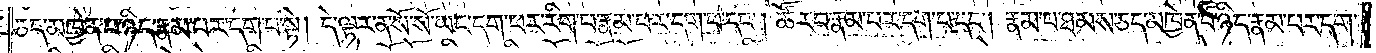ཅད་མཁྱེན་པ་ཉིད་རྣམ་པར་དག་པ་སྟེ། དེ་ལྟར་ན་སོ་སོ་ཡང་དག་པར་རིག་པ་རྣམ་པར་དག་པ་དང༌། ཚོར་བ་རྣམ་པར་དག་པ་དང༌། རྣམ་པ་ཐམས་ཅད་མཁྱེན་པ་ཉིད་རྣམ་པར་དག་
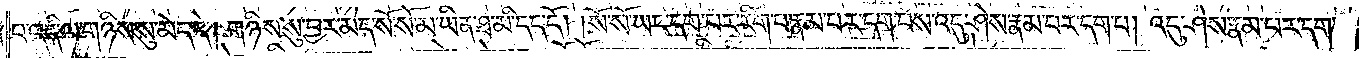པ་འདི་ལ་གཉིས་སུ་མེད་དེ། གཉིས་སུ་བྱར་མེད་སོ་སོ་མ་ཡིན་ཐ་མི་དད་དོ། །སོ་སོ་ཡང་དག་པར་རིག་པ་རྣམ་པར་དག་པས་འདུ་ཤེས་རྣམ་པར་དག་པ། འདུ་ཤེས་རྣམ་པར་དག་
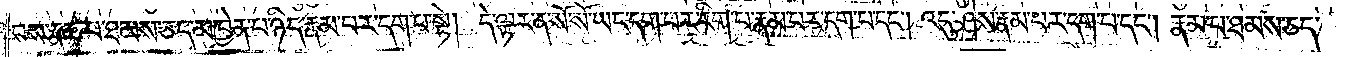པས་རྣམ་པ་ཐམས་ཅད་མཁྱེན་པ་ཉིད་རྣམ་པར་དག་པ་སྟེ། དེ་ལྟར་ན་སོ་སོ་ཡང་དག་པར་རིག་པ་རྣམ་པར་དག་པ་དང༌། འདུ་ཤེས་རྣམ་པར་དག་པ་དང༌། རྣམ་པ་ཐམས་ཅད་
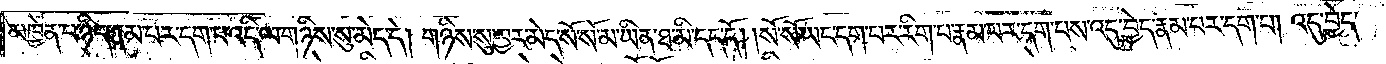མཁྱེན་པ་ཉིད་རྣམ་པར་དག་པ་འདི་ལ་གཉིས་སུ་མེད་དེ། གཉིས་སུ་བྱར་མེད་སོ་སོ་མ་ཡིན་ཐ་མི་དད་དོ། །སོ་སོ་ཡང་དག་པར་རིག་པ་རྣམ་པར་དག་པས་འདུ་བྱེད་རྣམ་པར་དག་པ། འདུ་བྱེད་
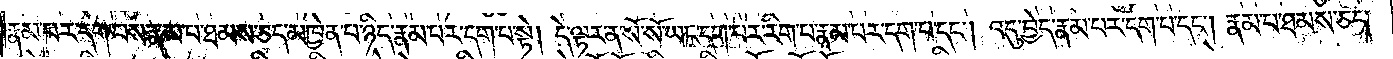རྣམ་པར་དག་པས་རྣམ་པ་ཐམས་ཅད་མཁྱེན་པ་ཉིད་རྣམ་པར་དག་པ་སྟེ། དེ་ལྟར་ན་སོ་སོ་ཡང་དག་པར་རིག་པ་རྣམ་པར་དག་པ་དང༌། འདུ་བྱེད་རྣམ་པར་དག་པ་དང༌། རྣམ་པ་ཐམས་ཅད་
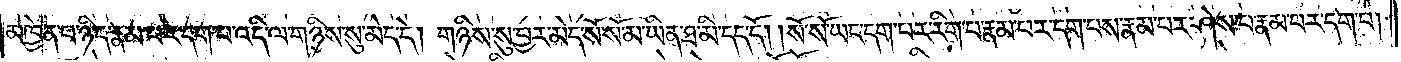མཁྱེན་པ་ཉིད་རྣམ་པར་དག་པ་འདི་ལ་གཉིས་སུ་མེད་དེ། གཉིས་སུ་བྱར་མེད་སོ་སོ་མ་ཡིན་ཐ་མི་དད་དོ། །སོ་སོ་ཡང་དག་པར་རིག་པ་རྣམ་པར་དག་པས་རྣམ་པར་ཤེས་པ་རྣམ་པར་དག་པ།
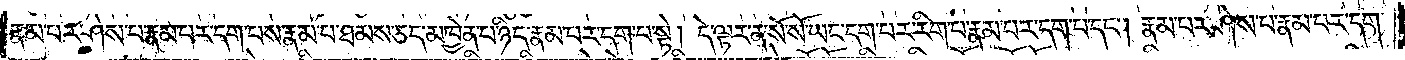རྣམ་པར་ཤེས་པ་རྣམ་པར་དག་པས་རྣམ་པ་ཐམས་ཅད་མཁྱེན་པ་ཉིད་རྣམ་པར་དག་པ་སྟེ། དེ་ལྟར་ན་སོ་སོ་ཡང་དག་པར་རིག་པ་རྣམ་པར་དག་པ་དང༌། རྣམ་པར་ཤེས་པ་རྣམ་པར་དག་
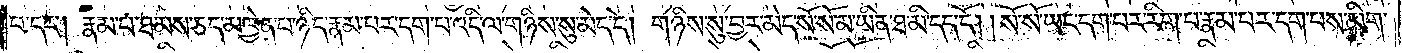པ་དང༌། རྣམ་པ་ཐམས་ཅད་མཁྱེན་པ་ཉིད་རྣམ་པར་དག་པ་འདི་ལ་གཉིས་སུ་མེད་དེ། གཉིས་སུ་བྱར་མེད་སོ་སོ་མ་ཡིན་ཐ་མི་དད་དོ། །སོ་སོ་ཡང་དག་པར་རིག་པ་རྣམ་པར་དག་པས་མིག་
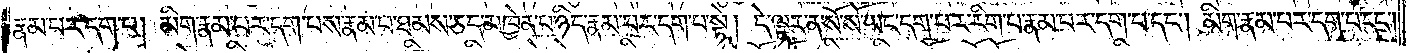རྣམ་པར་དག་པ། མིག་རྣམ་པར་དག་པས་རྣམ་པ་ཐམས་ཅད་མཁྱེན་པ་ཉིད་རྣམ་པར་དག་པ་སྟེ། དེ་ལྟར་ན་སོ་སོ་ཡང་དག་པར་རིག་པ་རྣམ་པར་དག་པ་དང༌། མིག་རྣམ་པར་དག་པ་དང༌།
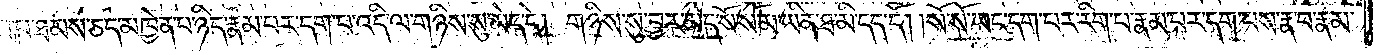རྣམ་པ་ཐམས་ཅད་མཁྱེན་པ་ཉིད་རྣམ་པར་དག་པ་འདི་ལ་གཉིས་སུ་མེད་དེ། གཉིས་སུ་བྱར་མེད་སོ་སོ་མ་ཡིན་ཐ་མི་དད་དོ། །སོ་སོ་ཡང་དག་པར་རིག་པ་རྣམ་པར་དག་པས་རྣ་བ་རྣམ་
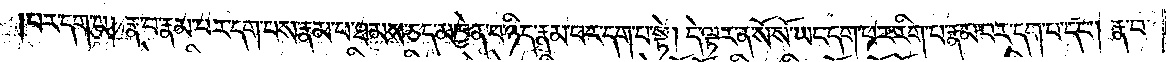པར་དག་པ། རྣ་བ་རྣམ་པར་དག་པས་རྣམ་པ་ཐམས་ཅད་མཁྱེན་པ་ཉིད་རྣམ་པར་དག་པ་སྟེ། དེ་ལྟར་ན་སོ་སོ་ཡང་དག་པར་རིག་པ་རྣམ་པར་དག་པ་དང༌། རྣ་བ་
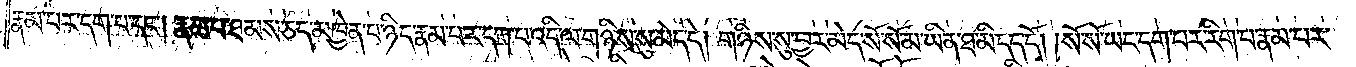རྣམ་པར་དག་པ་དང༌། རྣམ་པ་ཐམས་ཅད་མཁྱེན་པ་ཉིད་རྣམ་པར་དག་པ་འདི་ལ་གཉིས་སུ་མེད་དེ། གཉིས་སུ་བྱར་མེད་སོ་སོ་མ་ཡིན་ཐ་མི་དད་དོ། །སོ་སོ་ཡང་དག་པར་རིག་པ་རྣམ་པར་
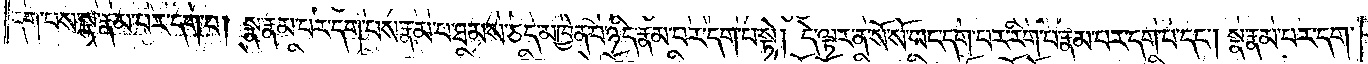དག་པས་སྣ་རྣམ་པར་དག་པ། སྣ་རྣམ་པར་དག་པས་རྣམ་པ་ཐམས་ཅད་མཁྱེན་པ་ཉིད་རྣམ་པར་དག་པ་སྟེ། དེ་ལྟར་ན་སོ་སོ་ཡང་དག་པར་རིག་པ་རྣམ་པར་དག་པ་དང༌། སྣ་རྣམ་པར་དག་
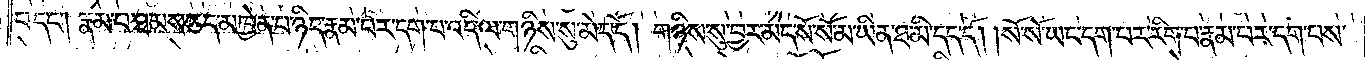པ་དང༌། རྣམ་པ་ཐམས་ཅད་མཁྱེན་པ་ཉིད་རྣམ་པར་དག་པ་འདི་ལ་གཉིས་སུ་མེད་དོ། གཉིས་སུ་བྱར་མེད་སོ་སོ་མ་ཡིན་ཐ་མི་དད་དོ། །སོ་སོ་ཡང་དག་པར་རིག་པ་རྣམ་པར་དག་པས་
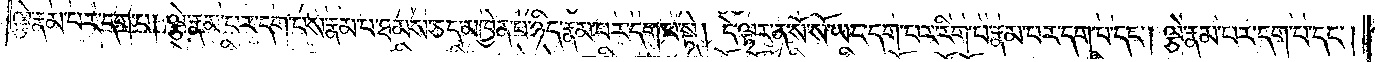ལྕེ་རྣམ་པར་དག་པ། ལྕེ་རྣམ་པར་དག་པས་རྣམ་པ་ཐམས་ཅད་མཁྱེན་པ་ཉིད་རྣམ་པར་དག་པ་སྟེ། དེ་ལྟར་ན་སོ་སོ་ཡང་དག་པར་རིག་པ་རྣམ་པར་དག་པ་དང༌། ལྕེ་རྣམ་པར་དག་པ་དང༌།
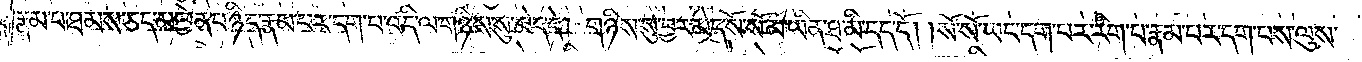རྣམ་པ་ཐམས་ཅད་མཁྱེན་པ་ཉིད་རྣམ་པར་དག་པ་འདི་ལ་གཉིས་སུ་མེད་དེ། གཉིས་སུ་བྱར་མེད་སོ་སོ་མ་ཡིན་ཐ་མི་དད་དོ། །སོ་སོ་ཡང་དག་པར་རིག་པ་རྣམ་པར་དག་པས་ལུས་
